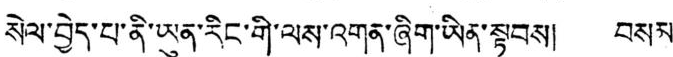སེལ་བྱེད་པ་ནི་ཡུན་རིང་གི་ལས་འགན་ཞིག་ཡིན་སྟབས། བསམ་
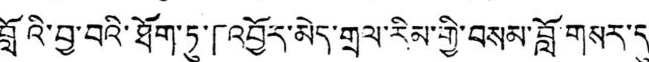བློའི་བྱ་བའི་ཐོག་ཏུ་「འབྱོར་མེད་གྲལ་རིམ་གྱི་བསམ་བློ་གསར་དུ་་
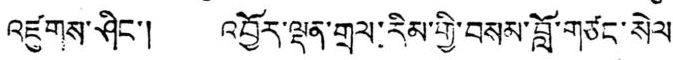འཛུགས་ཤིང་། འབྱོར་ལྡན་གྲལ་རིམ་གྱི་བསམ་བློ་གཙང་སེལ་
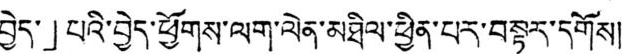བྱེད་」པའི་བྱེད་ཕྱོགས་ལག་ལེན་མཐིལ་ཕྱིན་པར་བསྟར་དགོས།
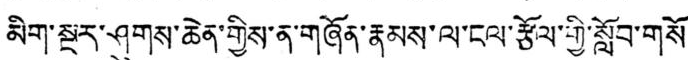མིག་སྔར་ཤུགས་ཆེན་གྱིས་ན་གཞོན་རྣམས་ལ་ངལ་རྩོལ་གྱི་སློབ་གསོ
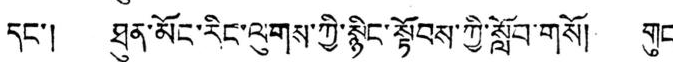དང་། ཐུན་མོང་རིང་ལུགས་ཀྱི་སྙིང་སྟོབས་ཀྱི་སློབ་གསོ། གུང་
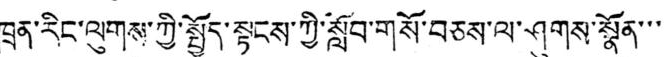ཁྲན་རིང་ལུགས་ཀྱི་སྤྱོད་སྟངས་ཀྱི་སློབ་གསོ་བཅས་ལ་ཤུགས་སྣོན་་་་
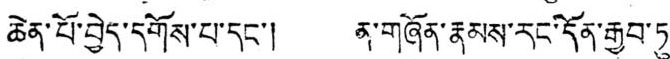ཆེན་པོ་བྱེད་དགོས་པ་དང་། ན་གཞོན་རྣམས་རང་དོན་རྒྱབ་ཏུ་
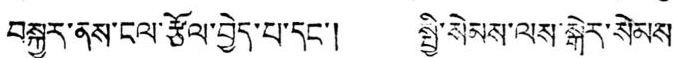བསྐྱུར་ནས་ངལ་རྩོལ་བྱེད་པ་དང་། སྤྱི་སེམས་ལས་སྒེར་སེམས་
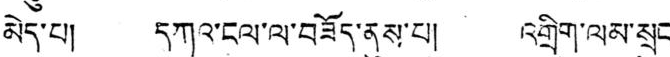མེད་པ། དཀའ་ངལ་ལ་བཟོད་ནུས་པ། འགྲིག་ལམ་སྲུང་
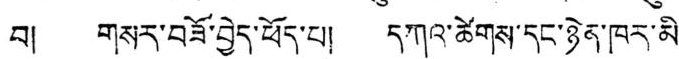བ། གསར་བཟོ་བྱེད་ཕོད་པ། དཀའ་ཚེགས་དང་ཉེན་ཁར་མི་
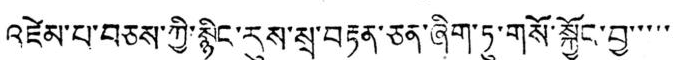འཛེམ་པ་བཅས་ཀྱི་སྙིང་རུས་སྲ་བརྟན་ཅན་ཞིག་ཏུ་གསོ་སྐྱོང་བྱ་་་་་་
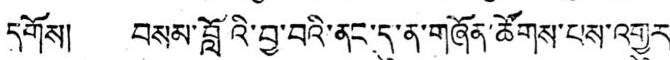དགོས། བསམ་བློའི་བྱ་བའི་ནང་དུ་ན་གཞོན་ཚོགས་པས་འགྱུར་
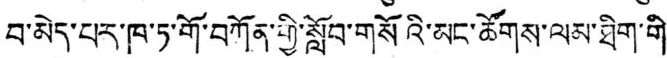བ་མེད་པར་ཁ་ཏ་གོ་བཀོན་གྱི་སློབ་གསོའི་མང་ཚོགས་ལམ་ཐིག་གི་་
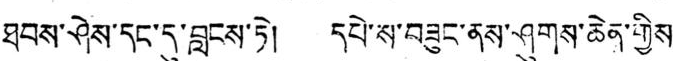ཐབས་ཤེས་དང་དུ་བླངས་ཏེ། དཔེ་ས་བཟུང་ནས་ཤུགས་ཆེན་གྱིས་
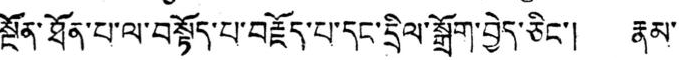སྔོན་ཐོན་པ་ལ་བསྟོད་པ་བརྗོད་པ་དང་དྲིལ་སྒྲོག་བྱེད་ཅིང་། རྣམ་
